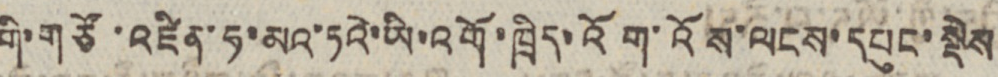གི་གཙོ་འཛིན་ཧ་མའ་ཏའེ་ཡི་འགོ་ཁྲིད་འོག་འོས་ལངས་དཔུང་སྡེས
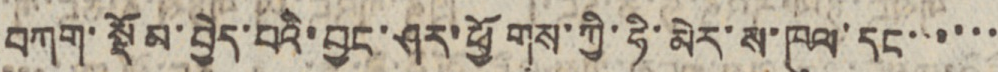བཀག་སྡོམ་བྱེད་པའི་བྱང་ཤར་ཕྱོགས་ཀྱི་ཧི་མེར་ས་ཁུལ་དང་་་་་་
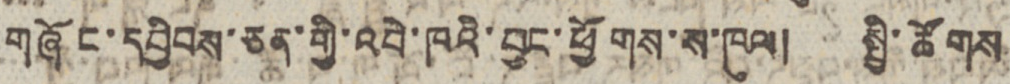གཞོང་དབྱིབས་ཅན་གྱི་འབེ་ཁའི་བྱང་ཕྱོགས་ས་ཁུལ། སྤྱི་ཚོགས
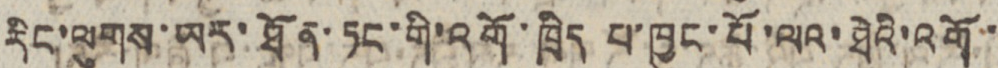རིང་ལུགས་ཡར་ཐོན་ཏང་གི་འགོ་ཁྲིད པ་ཁྱུང་པོ་ལའ་ཐེའི་འགོ་་
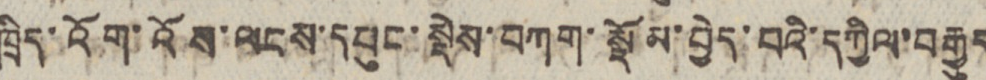ཁྲིད་འོག་འོས་ལངས་དཔུང་སྡེབས་བཀག་སྡོམ་བྱེད་པའི་དཀྱིལ་བརྒྱུད
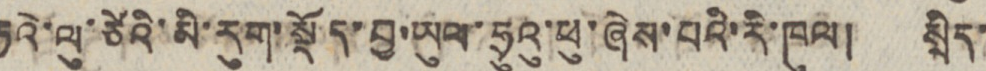རྟའེ་ལུ་ཙེའི་མི་རུག་སྡོད་བྱ་ཡུལ་ཧྲུའུ་ཕུ་ཞེས་པའི་རི་ཁུལ། སྲིད་
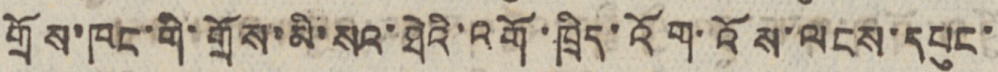གྲོས་ཁང་གི་གྲོས་མི་སའ་ཐེའི་འགོ་ཁྲིད་འོག་འོས་ལངས་དཔུང་
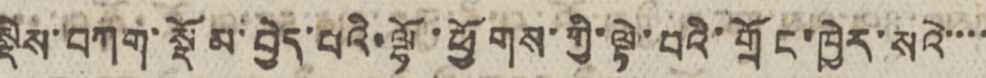སྡེས་བཀག་སྡོམ་བྱེད་པའི་ལྷོ་ཕྱོགས་ཀྱི་ལྟེ་བའི་གྲོང་ཁྱེར་སའེ་་་་
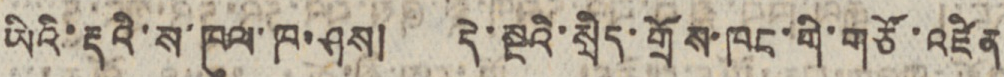ཡིའི་རྡའི་ས་ཁུལ་ཁ་ཤས། དེ་སྔའི་སྲིད་གྲོས་ཁང་གི་གཙོ་འཛིན
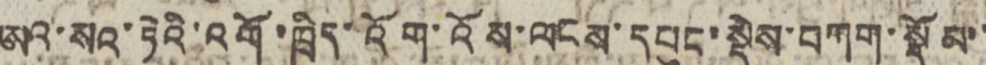ཨའ་སའ་ཏེའི་འགོ་ཁྲིད་འོག་འོས་ལངས་དཔུང་སྡེས་བཀག་སྡོམ་་
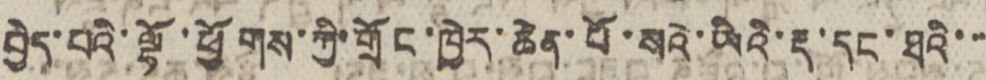བྱེད་པའི་ལྷོ་ཕྱོགས་ཀྱི་གྲོང་ཁྱེར་ཆེན་པོ་སའེ་ཡིའི་རྡ་དང་ཐའི་་་་
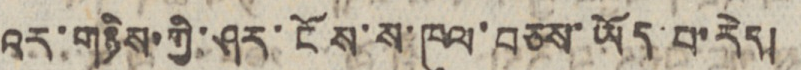འར་གཉིས་ཀྱི་ཤར་ངོས་ས་ཁུལ་བཅས་ཡོད་པ་རེད།
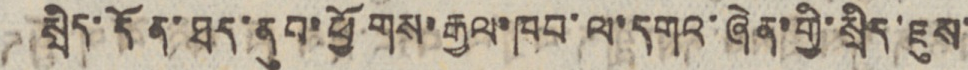སྲིད་དོན་ཐད་ནུབ་ཕྱོགས་རྒྱལ་ཁབ་ལ་དགའ་ཞེན་གྱི་སྲིད་ཇུས་
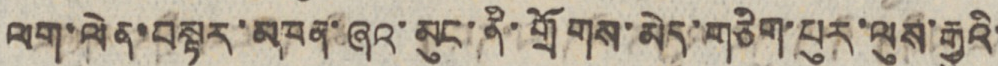ལག་ལེན་བསྟར་མཁན་ཞའ་མུང་ནི་གྲོགས་མེད་གཅིག་པུར་ལུས་རྒྱུའི་
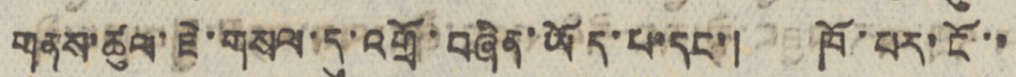གནས་ཚུལ་ཇེ་གསལ་དུ་འགྲོ་བཞིན་ཡོད་པ་དང་། ཁོ་པར་ངོ་་
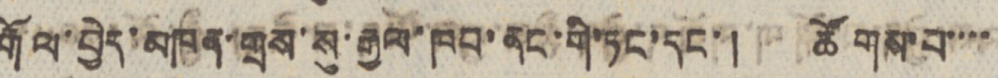རྒོལ་བྱེད་མཁན་གྲས་སུ་རྒྱལ་ཁབ་ནང་གི་ཏང་དང་། ཚོགས་པ་་་་
